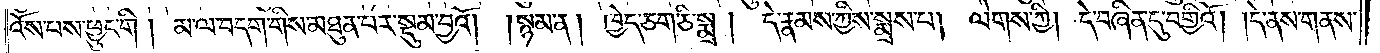འོས་པས་ཕྱུང་གི། མ་ལ་བདག་གིས་མཐུན་པར་སྡུམ་བྱའོ། །སྙམ་ན། ཁྱེད་ཅག་ཅི་སྨྲ། དེ་རྣམས་ཀྱིས་སྨྲས་པ། ལེགས་ཀྱི། དེ་བཞིན་དུ་བགྱིའོ། །དེ་ནས་གནས་
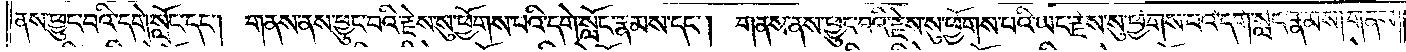ནས་ཕྱུང་བའི་དགེ་སློང་དང༌། གནས་ནས་ཕྱུང་བའི་རྗེས་སུ་ཕྱོགས་པའི་དགེ་སློང་རྣམས་དང༌། གནས་ནས་ཕྱུང་བའི་རྗེས་སུ་ཕྱོགས་པའི་ཡང་རྗེས་སུ་ཕྱོགས་པའི་དགེ་སློང་རྣམས། གནས་
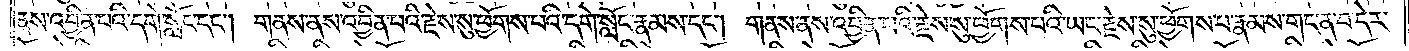ནས་འབྱིན་པའི་དགེ་སློང་དང༌། གནས་ནས་འབྱིན་པའི་རྗེས་སུ་ཕྱོགས་པའི་དགེ་སློང་རྣམས་དང༌། གནས་ནས་འབྱིན་པའི་རྗེས་སུ་ཕྱོགས་པ་རྣམས་གང་ན་བ་དེར་
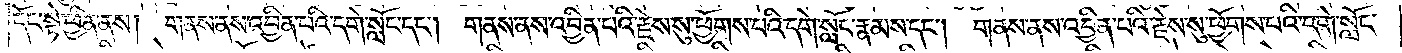དོང་སྟེ་ཕྱིན་ནས། གནས་ནས་འབྱིན་པའི་དགེ་སློང་དང༌། གནས་ནས་འབྱིན་པའི་རྗེས་སུ་ཕྱོགས་པའི་དགེ་སློང་རྣམས་དང༌། གནས་ནས་འབྱིན་པའི་རྗེས་སུ་ཕྱོགས་པའི་དགེ་སློང་
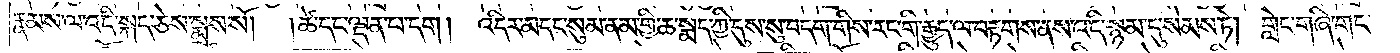རྣམས་ལ་འདི་སྐད་ཅེས་སྨྲས་སོ། །ཚེ་དང་ལྡན་པ་དག། འདིར་མདང་སུམ་ནམ་གྱི་ཆ་སྨད་ཀྱི་དུས་སུ་བདག་གིས་རང་གི་རྒྱུད་ལ་བརྟགས་ནས་འདི་སྙམ་དུ་སེམས་ཏེ། གླེང་གཞི་གང་
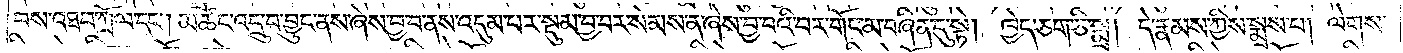བས་འཐབ་ཀྲོལ་དང༌། མཚང་འདྲུ་བ་བྱུང་ནས་ཞེས་བྱ་བ་ནས་འདུམ་པར་སྡུམ་བྱ་བར་སེམས་ན་ཞེས་བྱ་བའི་བར་གོང་མ་བཞིན་དུ་སྟེ། ཁྱེད་ཅག་ཅི་སྨྲ། དེ་རྣམས་ཀྱིས་སྨྲས་པ། ལེགས་
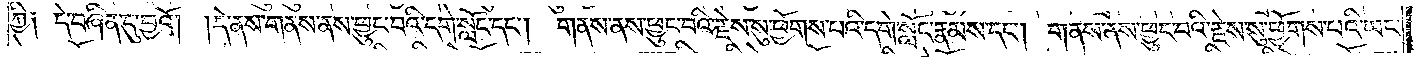ཀྱི༑ དེ་བཞིན་དུ་བྱའོ། །དེ་ནས་གནས་ནས་ཕྱུང་བའི་དགེ་སློང་དང༌། གནས་ནས་ཕྱུང་བའི་རྗེས་སུ་ཕྱོགས་པའི་དགེ་སློང་རྣམས་དང༌། གནས་ནས་ཕྱུང་བའི་རྗེས་སུ་ཕྱོགས་པའི་ཡང་
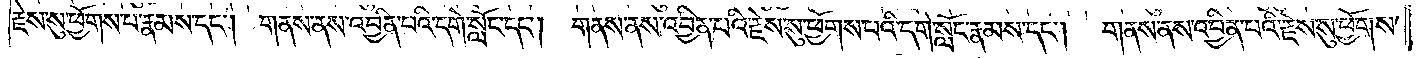རྗེས་སུ་ཕྱོགས་པ་རྣམས་དང༌། གནས་ནས་འབྱིན་པའི་དགེ་སློང་དང༌། གནས་ནས་འབྱིན་པའི་རྗེས་སུ་ཕྱོགས་པའི་དགེ་སློང་རྣམས་དང༌། གནས་ནས་འབྱིན་པའི་རྗེས་སུ་ཕྱོགས་
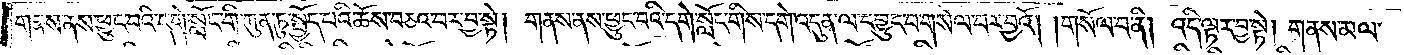གནས་ནས་ཕྱུང་བའི་དགེ་སློང་གི་ཀུན་ཏུ་སྤྱོད་པའི་ཆོས་བཅའ་བར་བྱ་སྟེ། གནས་ནས་ཕྱུང་བའི་དགེ་སློང་གིས་དགེ་འདུན་ལ་དབྱུང་བ་གསོལ་བར་བྱའོ། །གསོལ་བ་ནི། འདི་ལྟར་བྱ་སྟེ། གནས་མལ་
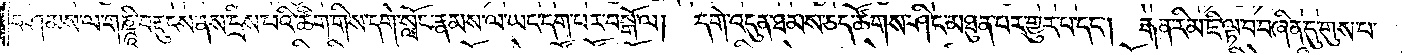བཤམས་ལ་གཎྜཱི་བརྡུངས་ནས་དྲིས་པའི་ཚིག་གིས་དགེ་སློང་རྣམས་ལ་ཡང་དག་པར་བསྒོ་ལ། དགེ་འདུན་ཐམས་ཅད་ཚོགས་ཤིང་མཐུན་པར་གྱུར་པ་དང༌། རྒན་རིམ་ཇི་ལྟ་བ་བཞིན་དུ་གུས་པ་
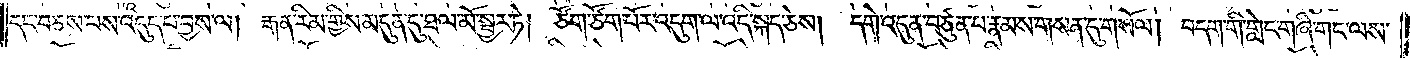དང་བཅས་པས་འདུད་པ་བྱས་ལ། རྒན་རིམ་གྱིས་མདུན་དུ་ཐལ་མོ་སྦྱར་ཏེ། ཙོག་ཙོག་པོར་འདུག་ལ་འདི་སྐད་ཅེས། དགེ་འདུན་བཙུན་པ་རྣམས་གསན་དུ་གསོལ། བདག་གི་གླེང་གཞི་གང་ལས་
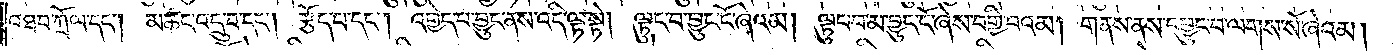འཐབ་ཀྲོལ་དང༌། མཚང་འདྲུ་བ་དང༌། རྩོད་པ་དང༌། འགྱེད་པ་བྱུང་ནས་འདི་ལྟ་སྟེ། ལྟུང་བ་བྱུང་ངོ་ཞེའམ། ལྟུང་བ་མ་བྱུང་ངོ་ཞེས་བགྱི་བའམ། གནས་ནས་དབྱུང་བ་ལགས་སོ་ཞེའམ།
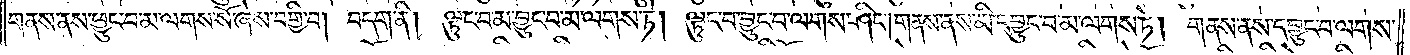གནས་ནས་ཕྱུང་བ་མ་ལགས་སོ་ཞེས་བགྱི་བ། བདག་ནི། ལྟུང་བ་མ་བྱུང་བ་མ་ལགས་ཏེ། ལྟུང་བ་མ་བྱུང་བ་ལགས་ཤིང༌། གནས་ནས་མི་དབྱུང་བ་མ་ལགས་ཏེ། གནས་ནས་དབྱུང་བ་ལགས་
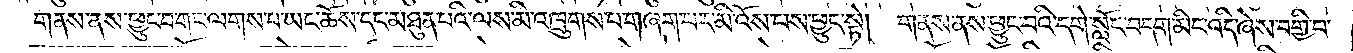ལ༑   གནས་ནས་ཕྱུང་བ་གང་ལགས་པ་ཡང་ཆོས་དང་མཐུན་པའི་ལས་མི་འཁྲུགས་པ་གཞག་པར་མི་འོས་པས་ཕྱུང་སྟེ། གནས་ནས་ཕྱུང་བའི་དགེ་སློང་བདག་མིང་འདི་ཞེས་བགྱི་བ་
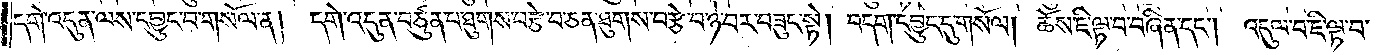དགེ་འདུན་ལས་དབྱུང་བ་གསོལ་ན། དགེ་འདུན་བཙུན་པ་ཐུགས་བརྩེ་བ་ཅན་ཐུགས་བརྩེ་བ་ཉེ་བར་བཟུང་སྟེ། བདག་དབྱུང་དུ་གསོལ། ཆོས་ཇི་ལྟ་བ་བཞིན་དང༌། འདུལ་བ་ཇི་ལྟ་བ་
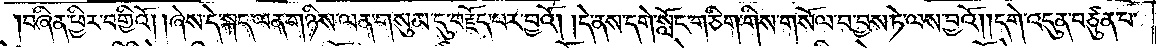བཞིན་ཕྱིར་བགྱིའོ། །ཞེས་དེ་སྐད་ལན་གཉིས་ལན་གསུམ་དུ་བརྗོད་པར་བྱའོ། །དེ་ནས་དགེ་སློང་གཅིག་གིས་གསོལ་བ་བྱས་ཏེ་ལས་བྱའོ། །དགེ་འདུན་བཙུན་པ་
